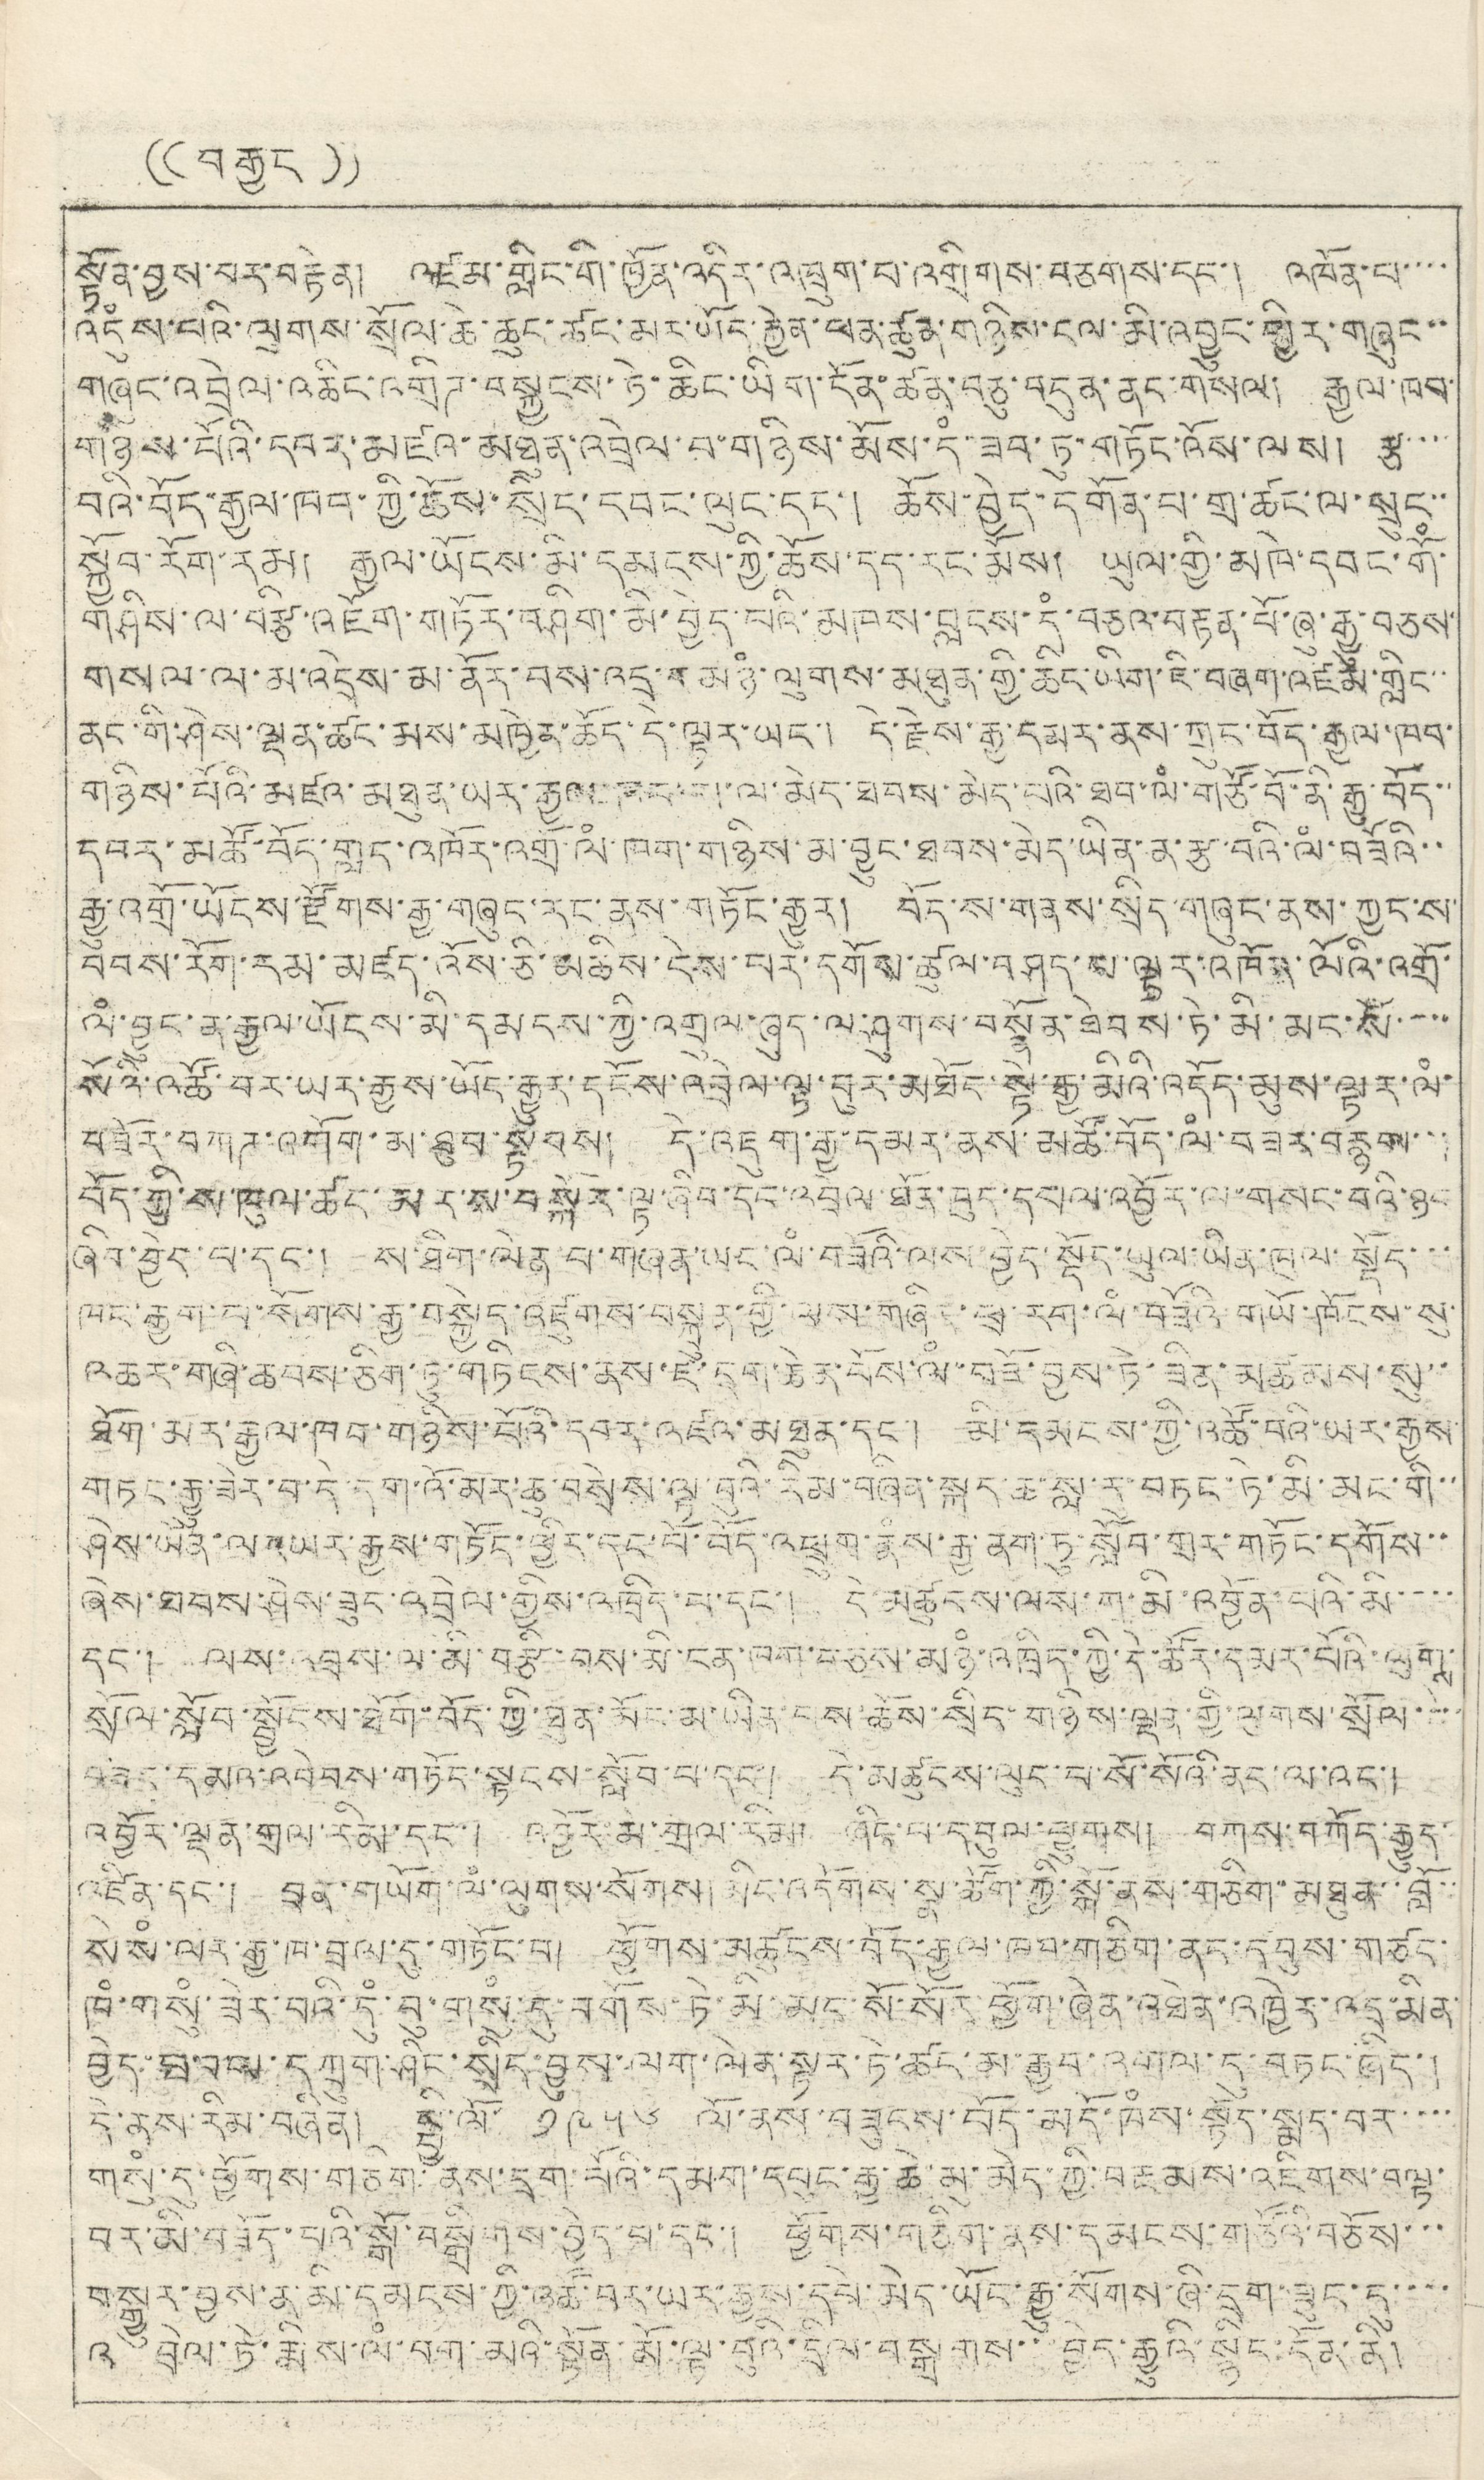(( བརྒྱད ))
སྟོན་བྱས་པར་བརྟེན། འཛམ་གླིང་གི་ཁྱོན་འདིར་འཁྲུག་བ་འགྲིགས་བཅགས་དང་། འཁོན་པ་་་་
འདུཾས་པའི་ལུགས་སྲོལ་ཆེ་ཆུང་ཚང་མར་ཡོད་རྐྱེན་ཕན་ཚུན་གཉིས་ངལ་མི་འབྱུང་ཕྱིར་གཞུང་་
གཞུང་འབྲེལ་འཆིང་འགྲིཊ་བསྐྱངས་ཏེ་ཆིང་ཡིག་དོན་ཚན་བཅུ་བདུན་ནང་གསོལ། རྒྱལ་ཁབ་
གཉིས་པོའི་དབར་མཛའ་མཐུན་འབྲེལ་བ་གཉིས་མོས་དཾ་ཟབ་ཏུ་གཏོང་འོས་ལས། རྩ་་་་
བའི་བོད་རྒྱལ་ཁབ་ཀྱི་ཆོས་སྲིད་དབང་ལུང་དང་། ཆོས་བྱེད་དགོན་པ་གྲ་ཚང་ལ་སྲུང་་
སྐྱོབ་རོག་རམ། རྒྱལ་ཡོངས་མི་དམངས་ཀྱི་ཆོས་དད་རང་མོས། ཡུལ་གྱི་མཁེ་དབང་གོ་
གཤིས་ལ་བརྩི་འཇོག་གཏོརབཤིག་མི་བྱེད་པའི་མཁས་བླངས་དཾ་བཅའ་བརྟན་པོ་ཞུ་རྒྱུ་བཅས་
གསལ་ལ་མ་འདྲེས་མ་ནོར་བས་འདྲ་བ་མཉཾ་ལུགས་མཐུན་གྱི་ཆིང་ཡིག་ཇི་བཞག་འཛམ་གླིང་་
ནང་གི་ཤེས་ལྡན་ཚང་མས་མཁྱེན་ཆོད་དེ་ལྟར་ཡང་། དེ་རྗེས་རྒྱ་དམར་ནས་ཀྲུང་བོད་རྒྱལ་ཁབ་
གཉིས་པོའི་མཛའ་མཐུན་ཡར་རྒྱལ་ཁབ་ས་ལ་མེད་ཐབས་མེད་པའི་ཐབ་ལཾ་གཙོ་བོ་ནི་རྒྱ་བོད་་
དབར་མཚོ་བོད་གླད་འཁོར་འགྲོ་ལཾ་ཁག་གཉིས་མ་བྱུང་ཐབས་མེད་ཡིན་ན་རྩ་བའི་ལཾ་བཟོའི་་
རྒྱུ་འགྲོ་ཡོངས་རྫོགས་རྒྱ་གཞུང་རང་ནས་གཏོང་རྒྱུར། བོད་ས་གནས་སྲིད་གཞུང་ནས་ཀྱང་ས་
བབས་རོག་རམ་མཛད་འོས་ཅི་མཆིས་ངེས་བར་དགོས་ཚུལ་བཤད་པ་ལྟར་འཁོར་ལོའི་འགྲོ་
ལཾ་བྱུང་ན་རྒྱལ་ཡོངས་མི་དམངས་ཀྱི་འགྲུལ་ཞུད་ལ་ཤུགས་བསྣོན་ཐེབས་ཏེ་མི་མང་སོ་་་་་
སོའི་འཚོ་བར་ཡར་རྒྱས་ཡོང་རྒྱུར་དངོས་འབྲེལ་ལྟ་བུར་མཐོང་སྟེ་རྒྱ་མིའི་འདོད་མུས་ལྟར་ལཾ་
བཟོར་བཀཊ་འགོག་མ་ཐུབ་སྟབས། དེ་འཇུག་རྒྱ་དམར་ནས་མཚོ་བོད་ལཾ་བཟར་བརྙལ་་་
བོད་ཀྱི་ས་ཁུལ་ཚང་མར་ས་བསྐོར་ལྟ་ཞིབ་དང་འབྲེལ་ཐོན་ཁུད་དཔལ་འབྱོར་ལ་གསང་བའི་ཉང
ཞིབ་བྱེད་པ་དང་། ས་ཐིག་ལེན་པ་གཞན་ཡང་ལཾ་བཟོའི་ལས་བྱེད་སྡོད་ཡུལ་ཡིན་ཁུལ་སྡོང་་་
ཁང་རྒྱག་པ་སོགས་རྒྱ་བསྐྱེད་འཛུགས་བསྐྲུན་གྱི་ལས་གཞིར་ཕྲ་རག་ལཾ་བཟོའི་གཡོ་ཁོངས་སུ་
འཆར་གཞི་ཆབས་ཅིག་ཏུ་གཏིངས་ནས་ཛ་དྲག་ཆེན་པོས་ལཾ་བཟོའི་བྱས་ཏེ་ཟིན་མཚམས་སུ་་
ཐོག་མར་རྒྱལ་ཁབ་གཉིས་པོའི་དབར་འཛའ་མཐུན་དང་། མི་དམངས་ཀྱི་འཚོ་བའི་ཡར་རྒྱས་
གཏང་རྒྱུ་ཟེར་བ་དེ་དག་འོ་མར་ཆུ་བསྲེས་ལྟ་བུའི་རིམ་བཞིན་སྐད་ཆ་སླ་རུ་བཏང་ཏེ་མི་མང་གི་་
ཤེས་ཡོན་ལ་ཡར་རྒྱས་གཏོང་ཕྱིར་དང་པོ་བོད་འཕྲུག་རྣཾས་རྒྱ་ནག་ཏུ་སློབ་གྲར་གཏོང་དགོས་་
ཞེས་ཐབས་ཤེས་ཟུང་འབྲེལ་གྱིས་འཁྲིད་པ་དང་། དེ་མཚུངས་ལས་ཀ་མི་འབྱོན་པའི་མི་་་་
དང་། ལས་འབྲས་ལ་མི་བརྩི་བས་མི་ངན་ཁག་བཅས་མཉཾ་འཁྲིད་ཀྱི་དེ་ཚོར་དམར་པོའི་ལུགས་
སྲོལ་སློབ་སྦྱོངས་ཐོག་བོད་ཀྱི་ཐུན་མོང་མ་ཡིན་པས་ཆོས་སྲིད་གཉིས་ལྡན་གྱི་ལུགས་སྲོལ་་་་
བཟང་དམའ་འབེབས་གཏོང་སྟངས་སློབ་པ་དང་། དེ་མཚུངས་ལུང་པ་སོ་སོའི་ནང་ལ་འང་།
འབྱོར་ལྡན་གྲལ་རིམ་དང་། འབྱོར་མ་གྲལ་རིག།། ཞིང་པ་དབུལ་ཕྱུགས། བཀས་བཀོད་རྒྱུད་
འཛིན་དང་། བྲལ་གཡོག་ལཾ་ལུགས་སོགས། མིང་འདོགས་སྣ་ཚོག་ཀྱི་སྒོ་ནས་གཅིག་མཐུན་་བློ་་
སེ་སཾ་ལར་རྒྱ་ཁ་བྲལ་དུ་གཏོང་བ། ཕྱོགས་མཚུངས་བོད་ཀྱི་རྒྱལ་ཁབ་གཅིག་ནང་དབུས་གཙང་
ཁཾ་གསུཾ་ཟེར་བའི་དུཾ་བུ་གསུཾ་དུ་བགོས་ཏེ་མི་མང་སོ་སོར་ཕྱོག་ཞེན་འཐེན་འཁྱེར་འདྲ་མིན་
བྱེད་ཐབས་དཀྲུག་ཤིང་སྲིད་བྱུས་ལག་ལེན་ལྟར་ཏེ་ཚང་ལ་རྒྱབ་འགྲལ་དུ་བཏང་ཞིད་།
དེ་ནས་རིན་བཞིན། སྤྱི་ལོ་ ༡༩༥༦ ལོ་ནས་བཟུངས་བོད་མདོ་ཁཾས་སྟོད་སྨད་བར་་་་
གསུཾ་དུ་ཕྱོགས་གཅིག་ནས་དྲག་ལོའི་དམག་དབུང་རྒྱ་ཆེ་མུ་མེད་ཀྱི་བརྔམས་འཇིགས་བསྟ་
བར་མི་བཟོད་པའི་སྒོ་བསྒྲིགས་བྱེད་པ་དང་། ཕྱོགས་གཅིག་ནས་དམངས་གཙོའི་བཅོས་་་
བསྒྱུར་བྱས་ན་མི་དམངས་ཀྱི་འཚོ་བར་ཡར་རྒྱས་དཔེ་མེད་ཡོང་རྒྱུ་སོགས་ཞི་དྲག་ཟུང་དུ་་་་
འ བྲེལ་ཏེ་རྨིས་ལཾ་བག་མའི་སྟོན་མོ་ལྟ་བུའི་དྲིལ་བསྒྲགས་་་བྱེད་རྒྱུའི་སྙིང་དོན་ནི།
